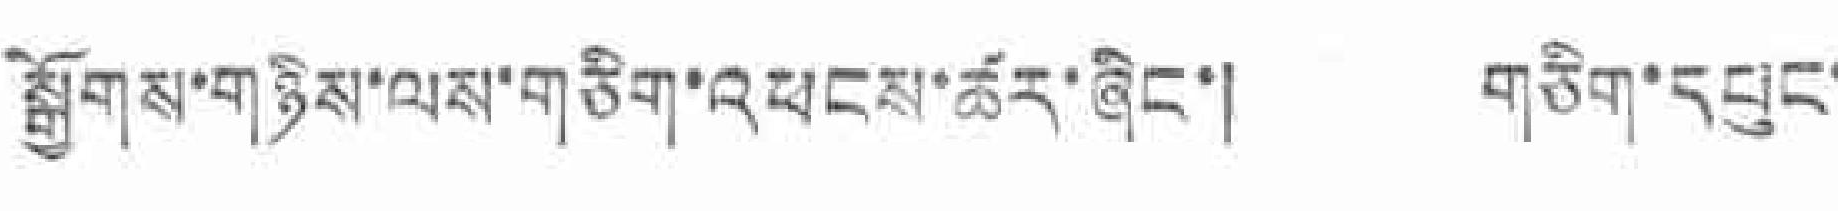སྒྱོགས་གཉིས་ལས་གཅིག་འཕངས་ཚར་ཞིང་། གཅིག་དཔུང་
